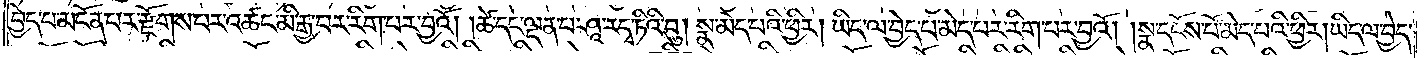བྱེད་པ་མངོན་པར་རྫོགས་པར་འཚང་མི་རྒྱ་བར་རིག་པར་བྱའོ། །ཚེ་དང་ལྡན་པ་ཤཱ་ར་དྭ་ཏིའི་བུ། སྣ་མེད་པའི་ཕྱིར། ཡིད་ལ་བྱེད་པ་མེད་པར་རིག་པར་བྱའོ། །སྣ་དངོས་པོ་མེད་པའི་ཕྱིར། ཡིད་ལ་བྱེད་
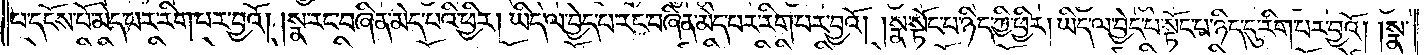པ་དངོས་པོ་མེད་པར་རིག་པར་བྱའོ། །སྣ་རང་བཞིན་མེད་པའི་ཕྱིར། ཡིད་ལ་བྱེད་པ་རང་བཞིན་མེད་པར་རིག་པར་བྱའོ། །སྣ་སྟོང་པ་ཉིད་ཀྱི་ཕྱིར། ཡིད་ལ་བྱེད་པ་སྟོང་པ་ཉིད་དུ་རིག་པར་བྱའོ། །སྣ་
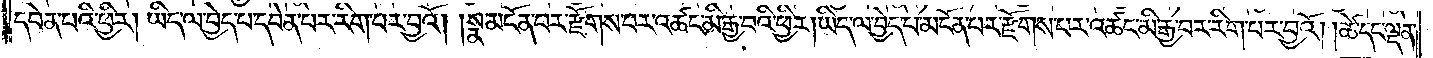དབེན་པའི་ཕྱིར། ཡིད་ལ་བྱེད་པ་དབེན་པར་རིག་པར་བྱའོ། །སྣ་མངོན་པར་རྫོགས་པར་འཚང་མི་རྒྱ་བའི་ཕྱིར། ཡིད་ལ་བྱེད་པ་མངོན་པར་རྫོགས་པར་འཚང་མི་རྒྱ་བར་རིག་པར་བྱའོ། །ཚེ་དང་ལྡན་
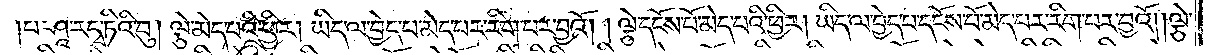པ་ཤཱ་ར་དྭ་ཏིའི་བུ། ལྕེ་མེད་པའི་ཕྱིར། ཡིད་ལ་བྱེད་པ་མེད་པར་རིག་པར་བྱའོ། །ལྕེ་དངོས་པོ་མེད་པའི་ཕྱིར། ཡིད་ལ་བྱེད་པ་དངོས་པོ་མེད་པར་རིག་པར་བྱའོ། །ལྕེ་
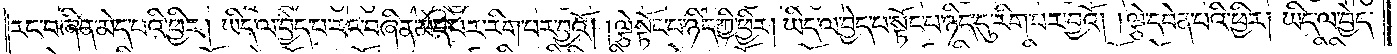རང་བཞིན་མེད་པའི་ཕྱིར། ཡིད་ལ་བྱེད་པ་རང་བཞིན་མེད་པར་རིག་པར་བྱའོ། །ལྕེ་སྟོང་པ་ཉིད་ཀྱི་ཕྱིར། ཡིད་ལ་བྱེད་པ་སྟོང་པ་ཉིད་དུ་རིག་པར་བྱའོ། །ལྕེ་དབེན་པའི་ཕྱིར། ཡིད་ལ་བྱེད་
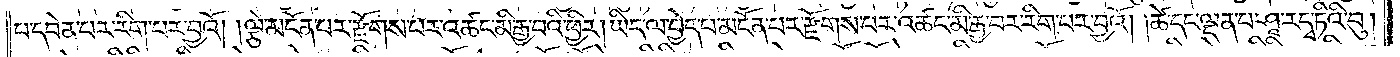པ་དབེན་པར་རིག་པར་བྱའོ། །ལྕེ་མངོན་པར་རྫོགས་པར་འཚང་མི་རྒྱ་བའི་ཕྱིར། ཡིད་ལ་བྱེད་པ་མངོན་པར་རྫོགས་པར་འཚང་མི་རྒྱ་བར་རིག་པར་བྱའོ། །ཚེ་དང་ལྡན་པ་ཤཱ་ར་དྭ་ཏིའི་བུ།
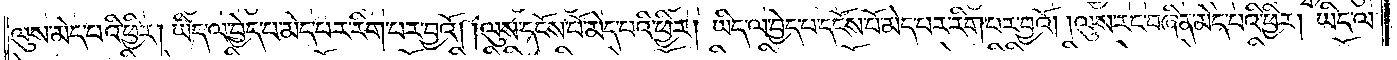ལུས་མེད་པའི་ཕྱིར། ཡིད་ལ་བྱེད་པ་མེད་པར་རིག་པར་བྱའོ། །ལུས་དངོས་པོ་མེད་པའི་ཕྱིར། ཡིད་ལ་བྱེད་པ་དངོས་པོ་མེད་པར་རིག་པར་བྱའོ། །ལུས་རང་བཞིན་མེད་པའི་ཕྱིར། ཡིད་ལ་
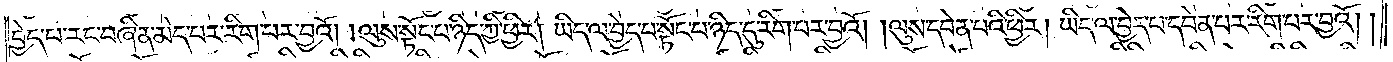བྱེད་པ་རང་བཞིན་མེད་པར་རིག་པར་བྱའོ། །ལུས་སྟོང་པ་ཉིད་ཀྱི་ཕྱིར། ཡིད་ལ་བྱེད་པ་སྟོང་པ་ཉིད་དུ་རིག་པར་བྱའོ། །ལུས་དབེན་པའི་ཕྱིར། ཡིད་ལ་བྱེད་པ་དབེན་པར་རིག་པར་བྱའོ། །
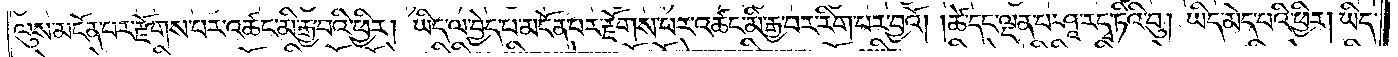ལུས་མངོན་པར་རྫོགས་པར་འཚང་མི་རྒྱ་བའི་ཕྱིར། ཡིད་ལ་བྱེད་པ་མངོན་པར་རྫོགས་པར་འཚང་མི་རྒྱ་བར་རིག་པར་བྱའོ། །ཚེ་དང་ལྡན་པ་ཤཱ་ར་དྭ་ཏིའི་བུ། ཡིད་མེད་པའི་ཕྱིར། ཡིད་
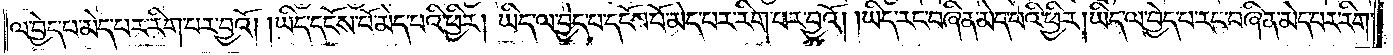ལ་བྱེད་པ་མེད་པར་རིག་པར་བྱའོ། །ཡིད་དངོས་པོ་མེད་པའི་ཕྱིར། ཡིད་ལ་བྱེད་པ་དངོས་པོ་མེད་པར་རིག་པར་བྱའོ། །ཡིད་རང་བཞིན་མེད་པའི་ཕྱིར། ཡིད་ལ་བྱེད་པ་རང་བཞིན་མེད་པར་རིག་
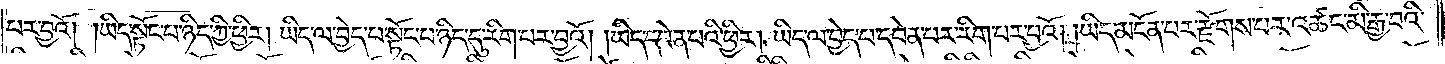པར་བྱའོ། །ཡིད་སྟོང་པ་ཉིད་ཀྱི་ཕྱིར། ཡིད་ལ་བྱེད་པ་སྟོང་པ་ཉིད་དུ་རིག་པར་བྱའོ། ཡིད་དབེན་པའི་ཕྱིར། ཡིད་ལ་བྱེད་པ་དབེན་པར་རིག་པར་བྱའོ། །ཡིད་མངོན་པར་རྫོགས་པར་འཚང་མི་རྒྱ་བའི་
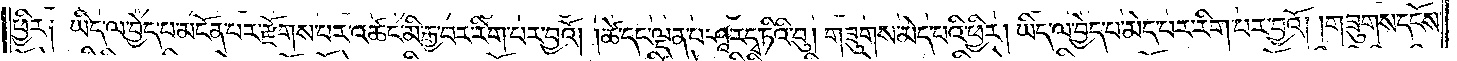ཕྱིར༏ ཡིད་ལ་བྱེད་པ་མངོན་པར་རྫོགས་པར་འཚང་མི་རྒྱ་བར་རིག་པར་བྱའོ། །ཚེ་དང་ལྡན་པ་ཤཱ་ར་དྭ་ཏིའི་བུ། གཟུགས་མེད་པའི་ཕྱིར། ཡིད་ལ་བྱེད་པ་མེད་པར་རིག་པར་བྱའོ། །གཟུགས་དངོས་
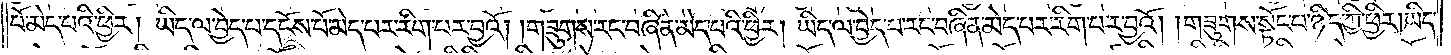པོ་མེད་པའི་ཕྱིར། ཡིད་ལ་བྱེད་པ་དངོས་པོ་མེད་པར་རིག་པར་བྱའོ། །གཟུགས་རང་བཞིན་མེད་པའི་ཕྱིར། ཡིད་ལ་བྱེད་པ་རང་བཞིན་མེད་པར་རིག་པར་བྱའོ། །གཟུགས་སྟོང་པ་ཉིད་ཀྱི་ཕྱིར། ཡིད་
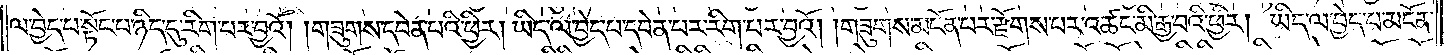ལ་བྱེད་པ་སྟོང་པ་ཉིད་དུ་རིག་པར་བྱའོ། །གཟུགས་དབེན་པའི་ཕྱིར། ཡིད་ལ་བྱེད་པ་དབེན་པར་རིག་པར་བྱའོ། །གཟུགས་མངོན་པར་རྫོགས་པར་འཚང་མི་རྒྱ་བའི་ཕྱིར། ཡིད་ལ་བྱེད་པ་མངོན་
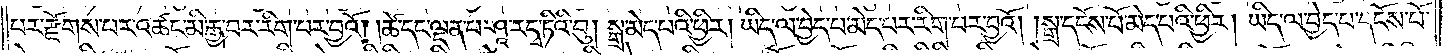པར་རྫོགས་པར་འཚང་མི་རྒྱ་བར་རིག་པར་བྱའོ། ཚེ་དང་ལྡན་པ་ཤཱ་ར་དྭ་ཏིའི་བུ། སྒྲ་མེད་པའི་ཕྱིར། ཡིད་ལ་བྱེད་པ་མེད་པར་རིག་པར་བྱའོ། །སྒྲ་དངོས་པོ་མེད་པའི་ཕྱིར། ཡིད་ལ་བྱེད་པ་དངོས་པོ་
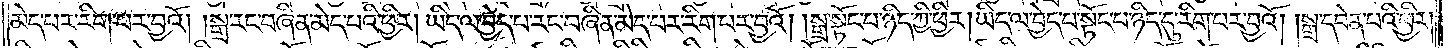མེད་པར་རིག་པར་བྱའོ། །སྒྲ་རང་བཞིན་མེད་པའི་ཕྱིར། ཡིད་ལ་བྱེད་པ་རང་བཞིན་མེད་པར་རིག་པར་བྱའོ། །སྒྲ་སྟོང་པ་ཉིད་ཀྱི་ཕྱིར། ཡིད་ལ་བྱེད་པ་སྟོང་པ་ཉིད་དུ་རིག་པར་བྱའོ། །སྒྲ་དབེན་པའི་ཕྱིར།
